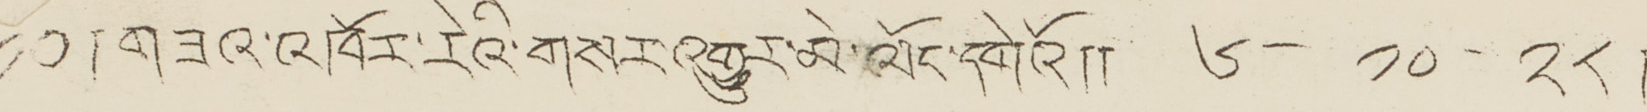༡༠།གཟའ་འཁོར་རེའི་གསར་འགྱུར་མེ་ལོང་དགེའོ།། ༦-༡༠-༢༨ །
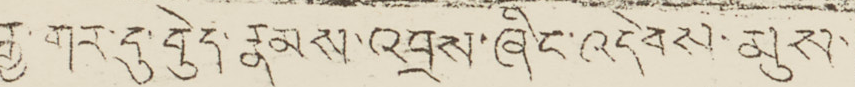རྒྱ་གར་དུ་བེུད་རྣམས་འབྲས་ཞིང་འདེབས་མུས་
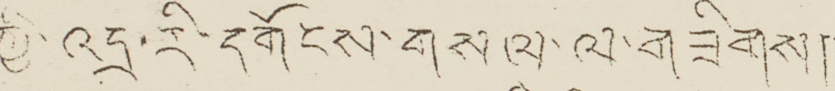ཀྱི་འདྲ་རི་དགོས་གསལ་ལ་གཟིགས།།
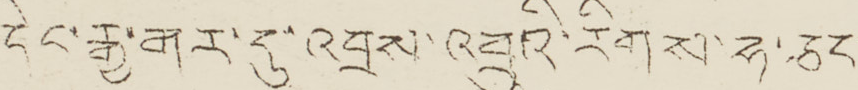དེང་རྒྱ་གར་དུ་འབྲས་འབྲུའི་རིགས་ཧ་ཅང་
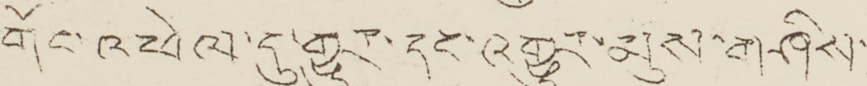གོང་འཕེལ་དུ་གྱུར་དང་འགྱུར་མུས་གཤིས་
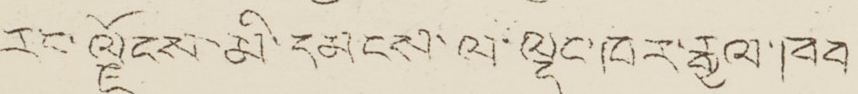རང་ལྗོངས་མི་དམངས་ལ་ལྡང་ཁར་རྒྱལ་ཁབ་
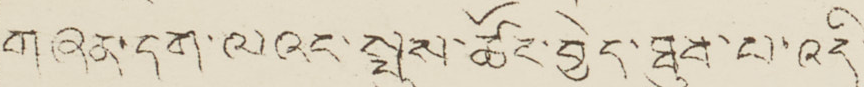གཞན་དག་ལའང་སྤུས་ཚོང་བྱེད་ཐུབ་པ་འདི་
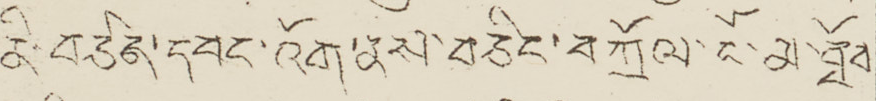ནི་བཙན་དབང་འོག་ནས་བཅིང་བཀྲོལ་ངོ་མ་ཐོབ་
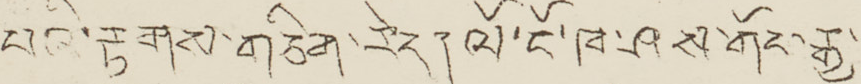པའི་རྟགས་གཅིག་རེད། ལོ་ངོ་ཁ་ཤས་གོང་རྒྱ་
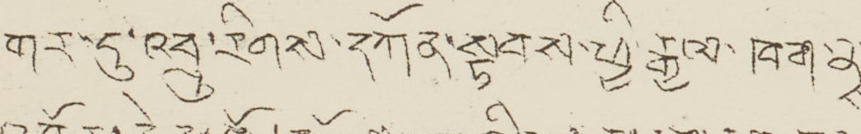གར་དུ་འབྲུ་རིགས་དཀོན་སྟབས་ཕྱི་རྒྱལ་ཁག་ནྶ་
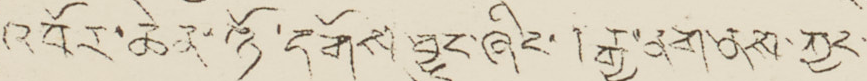འབོར་ཆེན་ཉོ་དགོས་བྱུང་ཞིང་། རྒྱ་ནག་ནས་ཀྱང་
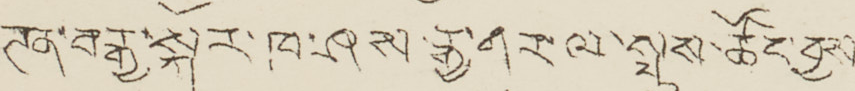ཊན་བརྒྱ་སྐོར་ཁ་ཤས་རྒྱ་གར་ལ་སྤུས་ཚོང་བྱས་
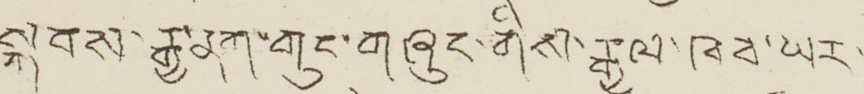སྐབས་རྒྱ་ནག་གུང་གཞུང་གིས་རྒྱལ་ཁབ་ཡར་
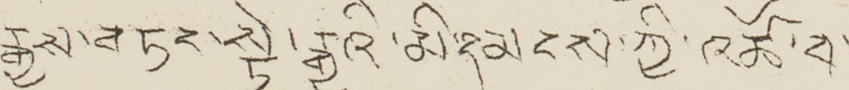རྒྱས་བཏང་སྟེ་རྒྱའི་མི་དམངས་ཀྱི་འཚོ་བ་
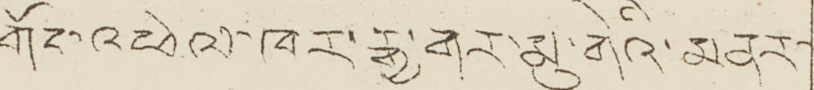གོང་འཕེལ་ཁར་རྒྱ་གར་མུ་གེའི་མནར་
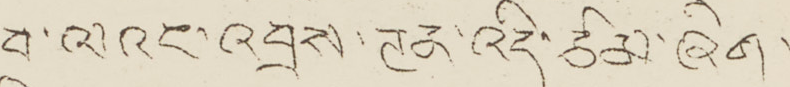བ་ལའང་འབྲས་ཊན་འདི་ཙམ་ཞིག་
